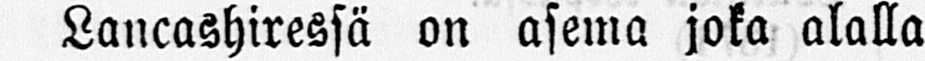Lancashiressä on asema joka alalla
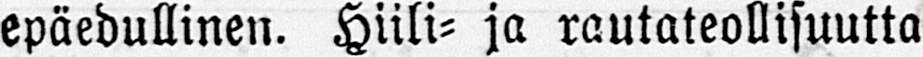epäedullinen. Hiili- ja rautateollisuutta
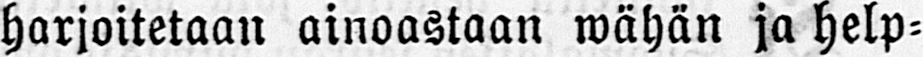harjoitetaan ainoastaan wähän ja help-
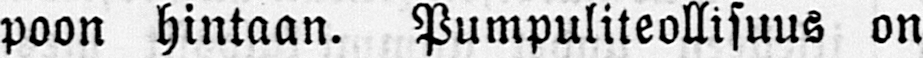poon hintaan. Pumpuliteollisuus on
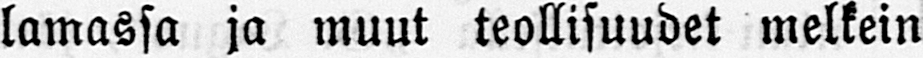lamassa ja muut teollisuudet melkein
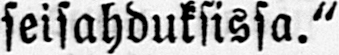seisahduksissa."
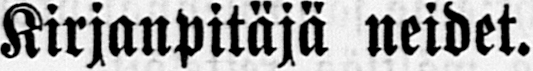Kirjanpitäjä neidet.
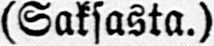(Saksasta.)
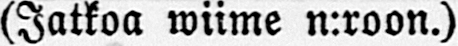(Jatkoa wiime n:roon.)
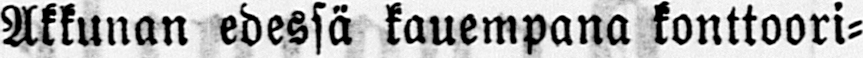Akkunan edessä kauempana konttoori-
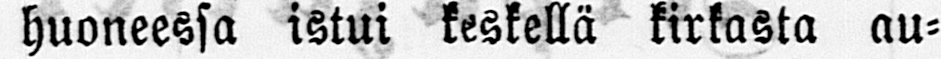huoneessa istui keskellä kirkasta au-
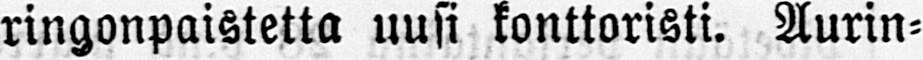ringonpaistetta uusi konttoristi. Aurin-
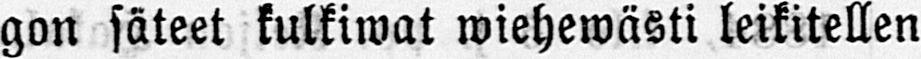gon säteet kulkiwat wiehewästi leikitellen
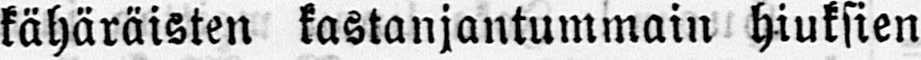kähäräisten kastanjantummain hiuksien
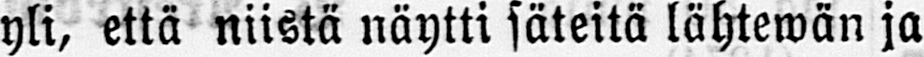yli, että niistä näytti säteitä lähtewän ja
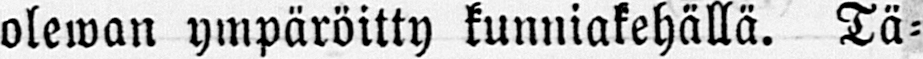olewan ympäröitty kunniakehällä. Tä-
